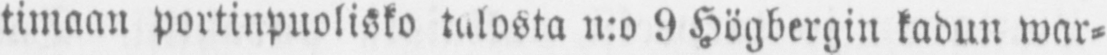timaan portinpuolisko talosta n:o 9 Högbergin kadun war-
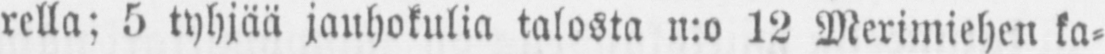rella; 5 tyhjää jauhokulia talosta n:o 12 Merimiehen ka-
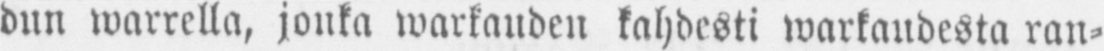dun warrella, jonka warkauden kahdesti warkaudesta ran-
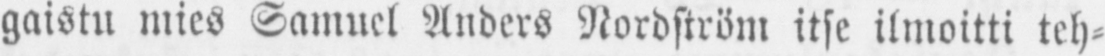gaistu mies Samuel Anders Nordström itse ilmoitti teh-
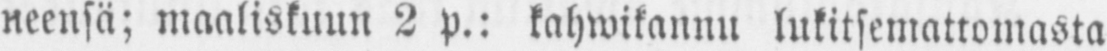neensä; maaliskuun 2 p.: kahwikannu lukitsemattomasta
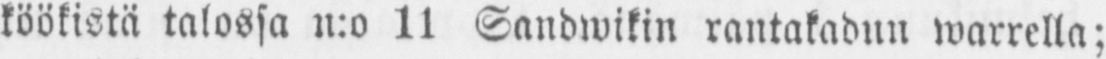köökistä talossa n:o 11 Sandwikin rantakadun warrella;
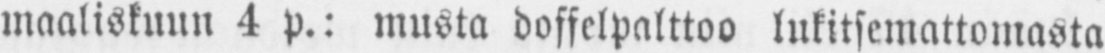maaliskuun 4 p.: musta doffelpalttoo lukitsemattomasta
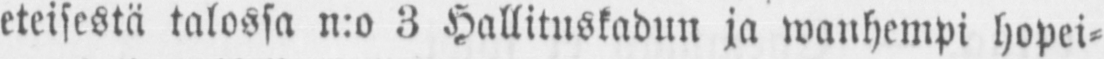eteisestä talossa n:o 3 Hallituskadun ja wanhempi hopei-
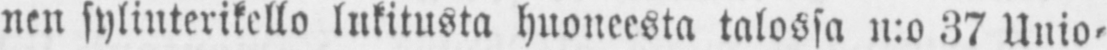nen sylinterikello lukitusta huoneesta talossa n:o 37 Unio-
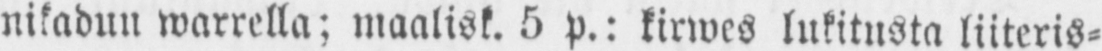nikadun warrella; maalisk. 5 p.: kirwes lukitusta liiteris-
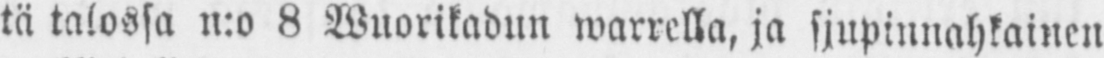tä talossa n:o 8 Wuorikadun warrella, ja sjupinnahkainen
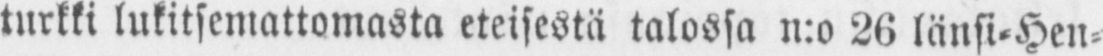turkki lukitsemattomasta eteisestä talossa n:o 26 länsi-Hen-
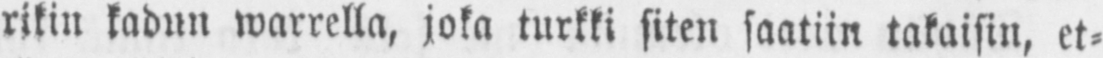rikin kadun warrella, joka turkki siten saatiin takaisin, et-
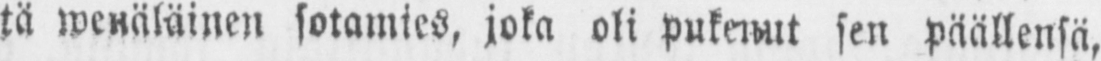tä wenäläinen sotamies, joka oli pukenut sen päällensä,
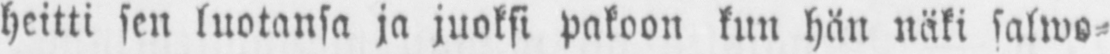heitti sen luotansa ja juoksi pakoon kun hän näki salwo-
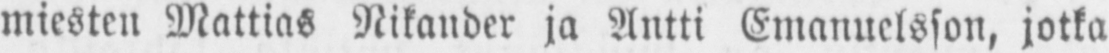miesten Mattias Nikander ja Antti Emanuelsson, jotka
